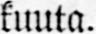kuuta.
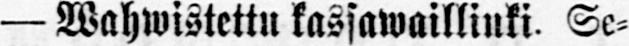— Waheistettu kassawailliuki Se-
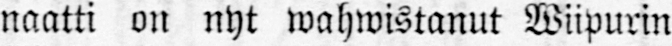naatti on nyt wahwistanut Wiipurin
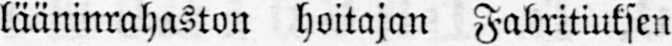lääninrahaston hoitajan Fabritiuksen
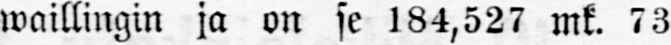waillingin ja on se 184,527 mk. 73
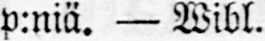p:niä. — Wibl.
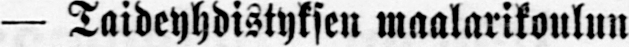— Taideyhdistyksen maalarikoulun
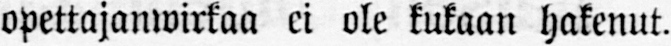opettajanwirkaa ei ole kukaan hakenut.
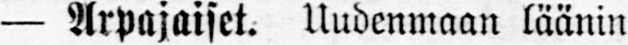— Arpajaiset. Uudenmaan läänin
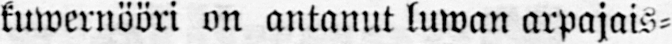kuwernööri on antanut luwan arpajais-
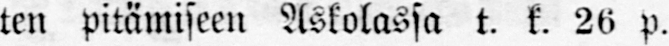ten pitämiseen Askolassa t. k. 26 p.
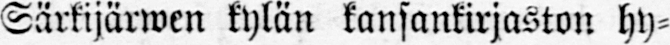Särkijärwen kylän kansankirjaston hy-
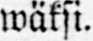wäksi.
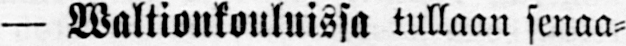— Waltionkouluissa tullaan senaa-
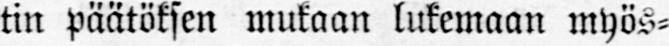tin päätöksen mukaan lukemaan myös-
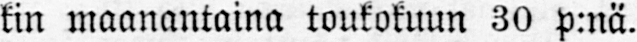kin maanantaina toukokuun 30 p:nä.
